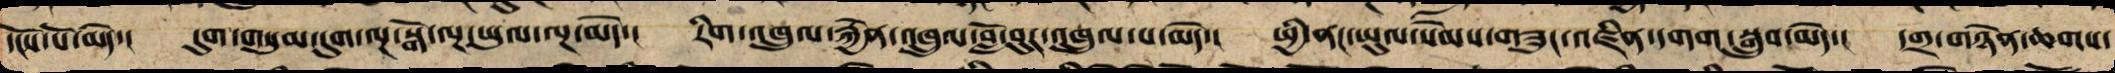དངོས་པོ་མེད་། དུག་གསུམ་དུག་ལྔ་སྒོ་ལྔ་ཡུལ་ལྔ་མེད་། རིག་འཁྲུལ་རྐྱེན་འཁྲུལ་གློ་བུར་འཁྲུལ་པ་མེད་། ཕྱི་ནང་ཡུལ་སེམས་གཟུང་འཛིན་དགག་སྒྲུབ་མེད་། དགྲ་གཉེན་ཆགས་
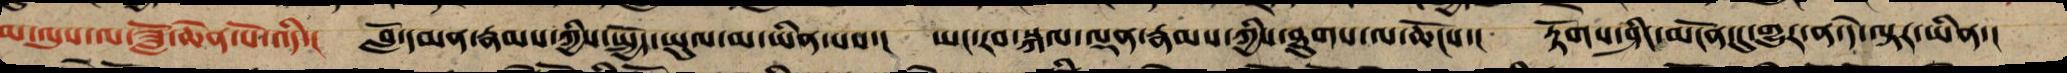མ་ལུས་ལ་ཟློ་ཆེན་པོ་འདི་། བློ་དམན་རྣམས་ཀྱིས་སྤྱོད་ཡུལ་མ་ཡིན་པས་། ཡང་རབ་སྐལ་ལྡན་རྣམས་ཀྱི་ཐུགས་ལ་ཆོངས་། རྟོགས་ཤིང་མངོན་དུ་གྱུར་ན་དེ་ལྟར་ཡིན་།
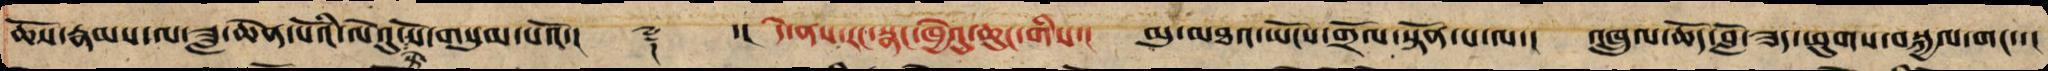ཆོས་རྣམས་ལ་ཟླ་ཆེན་པོའི་ལེའུ་སྟེ་སོ་གསུམ་པའོ་།། ༈ ་།། དེ་ནས་རང་སྣང་ཁྱེའུ་ཆུང་གིས་། མུ་མཐའ་ཡོངས་གྲོལ་སྟོན་པ་ལ་། འཁྲུལ་ཆོད་བློ་ཟད་ཕུགས་བསྐྱལ་གང་་།
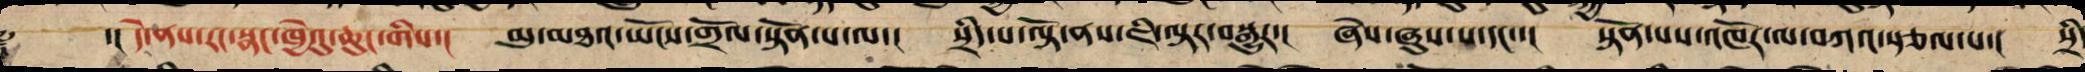༈ ་།། དེ་ནས་རང་སྣང་ཁྱེའུ་ཆུང་གིས་། མུ་མཐའ་ཡོངས་གྲོལ་སྟོན་པ་ལ་། སྲིད་པ་ལྟོ་ནས་ཇི་ལྟར་བསྒྱུར་། ཞེས་ཞུས་པ་དང་་། སྟོན་པས་འཁོར་ལ་བཀའ་སྩལ་པ་། སྲིད
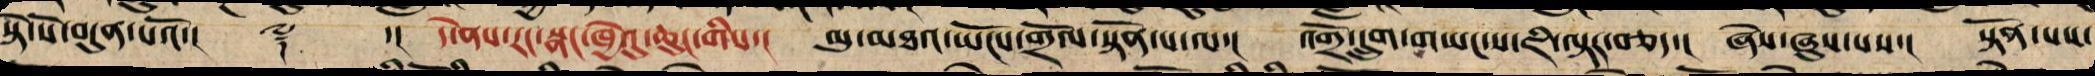སྟེ་སོ་བདུན་པའོ་།། ༈ ་།། དེ་ནས་རང་སྣང་ཁྱེའུ་ཆུང་གིས་། མུ་མཐའ་ཡོངས་གྲོལ་སྟོན་པ་ལ་། འགྲོ་དྲུག་གཡང་ས་ཇི་ལྟར་བཅད་། ཞེས་ཞུས་པས་། སྟོན་པས་
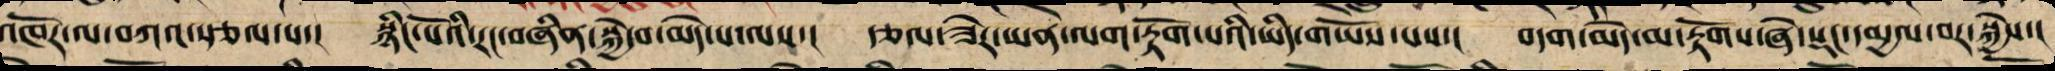འཁོར་ལ་བཀའ་སྩལ་པ་། སྙིང་པོའི་རང་བཞིན་སྐྱེ་བ་མེད་པ་ལས་། རྩལ་ཟེར་ཡན་ལག་རྟོག་པའི་ཡིད་གཡོས་པས་། བདག་མེད་མ་རྟོགས་ཞེ་སྡང་དམྱལ་བར་སྐྱེས་།
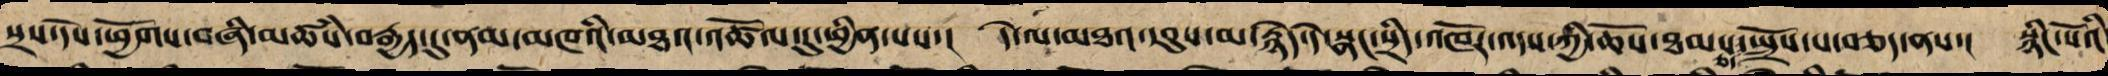སྲས་དེས་ཕྱོགས་བཞི་མཚཾས་བརྒྱད་དུ་ནམ་མཁའི་མཐའ་འཚོལ་དུ་ཕྱིན་པས་། དེ་ལ་མཐའ་དབུས་མ་རྙེད་དེ་སྣང་སྲིད་འཁོར་འདས་ཀྱི་ཆོས་ཐམས་ཅད་སྤྲོས་པ་བཅད་ནས་། སྙིང་པོའི་
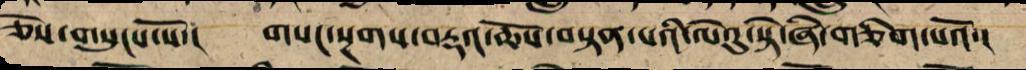ཅེས་གསུངས་སོ་། གསང་སྔགས་བརྡའ་ཆོས་བསྟན་པའི་ལེའུ་སྟེ་ཞེ་གཅིག་པའོ་།།
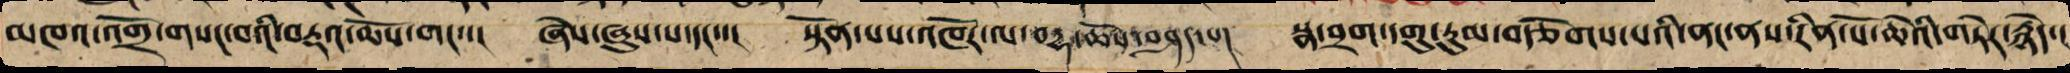མཁའ་འགྲོ་གསང་བའི་བརྡའ་ཆོས་གང་་། ཞེས་ཞུས་པ་དང་་། སྟོན་པས་འཁོར་ལ་བརྡ་ཆོས་བཤད་པ། སྣ་བྲག་དགུ་རུམ་བརྩེགས་པའི་ནང་ནས་རིན་པོ་ཆེའི་གཏེར་རྙེད་།
